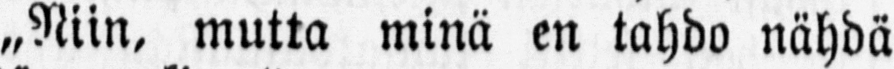„Niin, mutta minä en tahdo nähdä
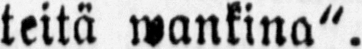teitä wankina".
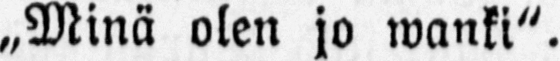„Minä olen jo wanki".
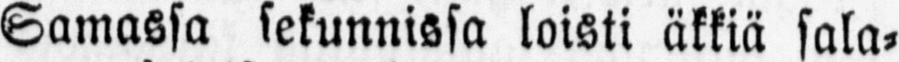Samassa sekunnissa loisti äkkiä sala-
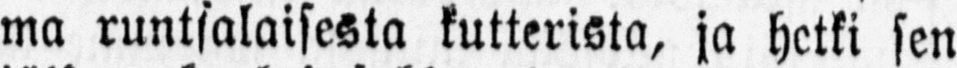ma runtsalaisesta kutterista, ja hetki sen
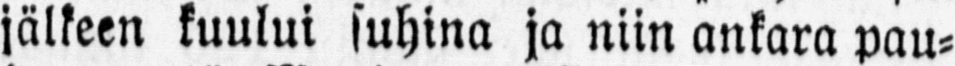jälkeen kuului suhina ja niin ankara pau-
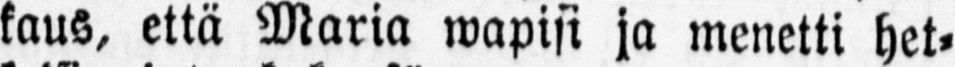kaus, että Maria wapisi ja menetti het-
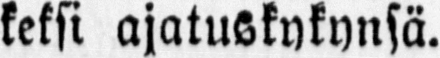keksi ajatuskykynsä.
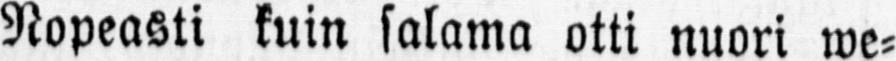Nopeasti kuin salama otti nuori we-
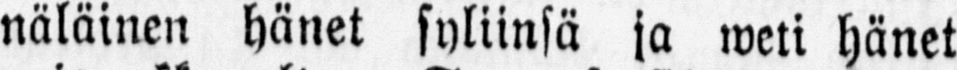näläinen hänet syliinsä ja weti hänet
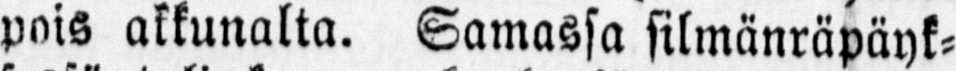pois akkunalta. Samassa silmänräpäyk-
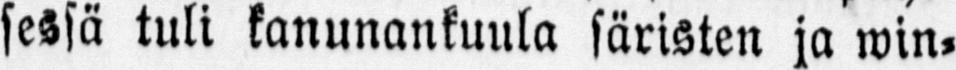sessä tuli kanunankuula säristen ja win-
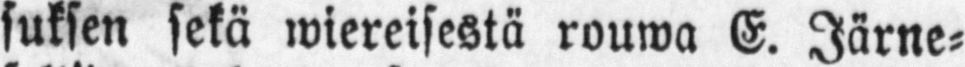suksen sekä wiereisestä rouwa E. Järne-
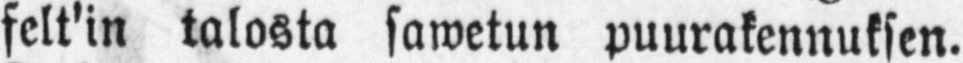felt'in talosta sawetun puurakennuksen.
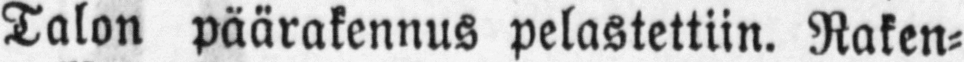Talon päärakennus pelastettiin. Raken-
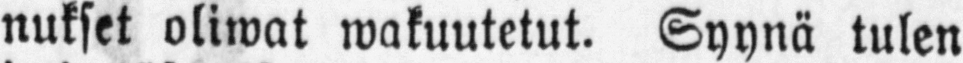nukset oliwat wakuutetut. Syynä tulen
